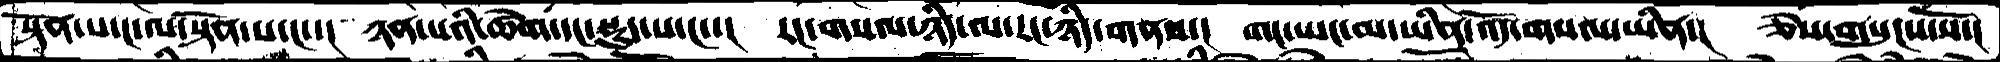སྟོན་པ་ང་ལ་སྟོན་པ་ང་་།  ཉན་པའི་ཚེག་དང་སྡུད་པ་ང་་།  རང་གསལ་ཉིད་ལ་རང་ཉིད་གནས་།  གང་ཡང་མ་ཡིན་འོད་གསལ་ཡིན་།  ཅེས་གསུངས་སོ་།
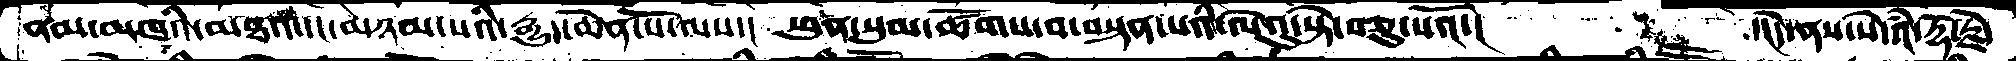ནམ་མཁའི་མཐའ་དང་མཉམ་པའི་རྒྱུད་ཆེན་པོ་ལས་།  ཕུན་སུམ་ཚོགས་བ་བསྟན་པའི་ལེའུ་སྟེ་བཅུ་པའོ་།      ་།དེ་ནས་སེདཾའ་རྡོ་རྗེ་
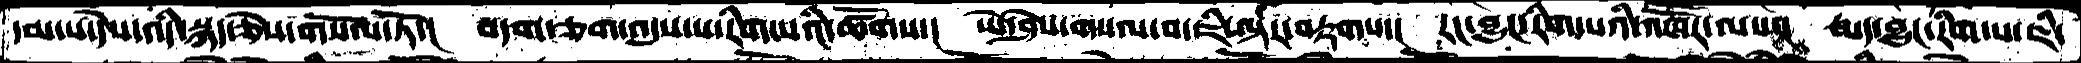དམ་པ་དེས་འདི་སྐད་ཅེས་གསོལ་ཏེ་།  བདག་ཅག་འདུས་པ་རིག་པའི་ཚོགས་།  ཡེ་ཤེས་གསལ་བ་ཇི་ལྟར་བརྟགས་།  རང་བྱུང་རིག་པའི་འཁཽར་ལས་།  རྨད་བྱུང་རིག་པ་ཇི་
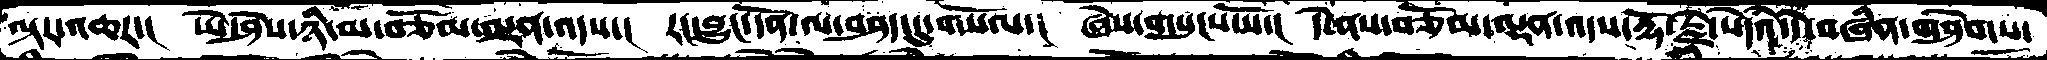ལྟར་འཆར་།  ཡེ་ཤེས་ཉི་མ་བཅོམ་ལྡན་འདས་།  རང་བྱུང་དོན་ལ་བཤད་དུ་གསོལ་།  ཞེས་གསུངས་སོ་།  དེ་ནས་བཅོམ་ལྡན་འདས་རྡོ་རྗེ་སེདཾའ་དེ་བཞིན་གཤེགས་
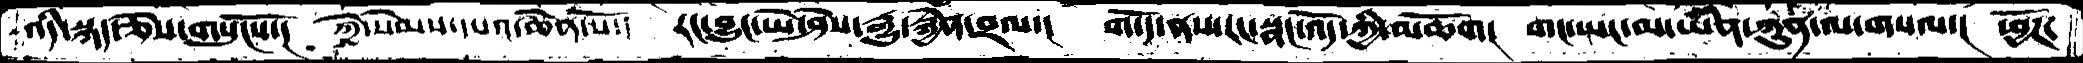འདི་སྐད་ཅེས་གསུངས་སོ་།  ཀྱེ་སེམས་དཔའ་ཆེན་པོ་།  རང་བྱུང་ཡེ་ཤེས་རྒྱུ་རྐྱེན་བྲལ་།  གདོད་ནས་རང་སྣང་འོད་ཀྱི་མཆོག།  གང་ཡང་མ་ཡིན་ཀུན་ལ་གསལ་།  ཕྱོཌ་
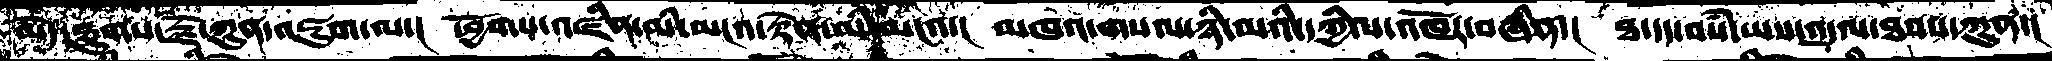མེད་ཐུགས་རྗེ་ཀུན་འཇུག་ལ་།  ཕྱོགས་འཛིན་མི་མངའ་རྟེན་མི་མངའ་།  མཁའ་གསལ་ཉི་མའི་དཀྱིལ་འཁོར་བཞིན་།  ཐ་དད་བསཾ་ཡས་འདུལ་ཐབས་ཀུན་།
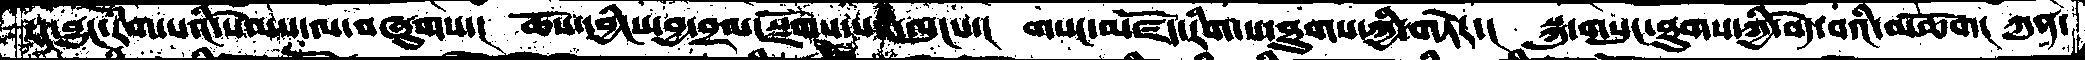རང་བྱུང་རིག་པའི་སེམས་ལ་བཞུགས་།  ཆོས་དབྱིངས་བྱ་བྲལ་སྫོགས་པའི་ལུངས་།  གསང་མཛོད་རིག་པ་ཐུགས་ཀྱི་གཏེར་།  སྐུ་གསུང་ཐུགས་ཀྱི་བདེ་བའི་མཆོག།  ཀུན་
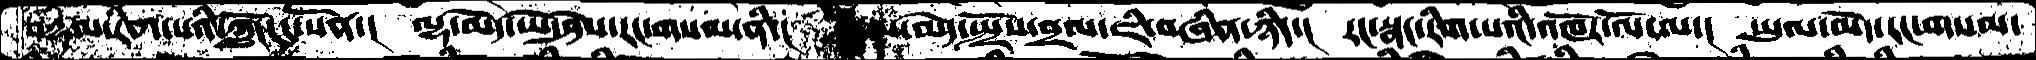བརྡལ་རིག་པའི་ཀློང་དུ་སོན་།  ལྷ་མེད་ཡེ་ཤེས་རང་གསལ་ནི་།  རྒྱུས་མེད་སྤྲོས་བྲལ་ཇི་བཞིན་ཉིད་།  རང་སྣང་རིག་པའི་འཁོར་ལོ་ལ་།  ཡུལ་མེད་རང་གསལ་
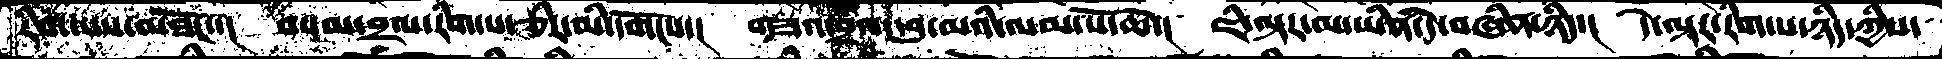རིག་པས་མཐོང་་།  བསམ་བྲལ་རིག་པ་ཅིར་མི་དགོངས་།  གཟའ་བྲལ་དབུ་མའི་ལམ་པོ་ཆེ་།  ཇི་ལྟར་མ་ཡིན་དེ་བཞིན་ཉིད་།  དེ་ལྟར་རིག་པ་ཉིད་ཀྱིས་
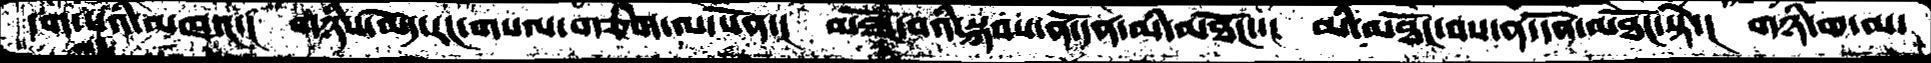དག་པའི་མཁའ་། གཉིས་མེད་རང་གསལ་གཅིག་ལ་སོན་།  མཐོ་བའི་སྐབས་ན་དོན་མི་མཐོང་།  མི་མཐོང་བས་ན་དོན་མཐོང་སྟེ་།  གཉི་ག་མ་
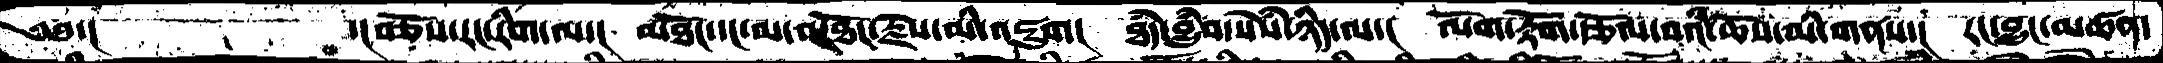༄༅་།       ་།བཅོས་རང་རིག་ལ་།  མཐོང་དང་མ་མཐོང་རྗེས་མི་འཇུག།  ཐཾད་བྱུཾབ་སེཾས་ཉིད་ལ་།  ལོག་རྟོག་རྩོལ་བའི་ཆོས་མི་གནས་།  རང་བྱུང་མཚན་
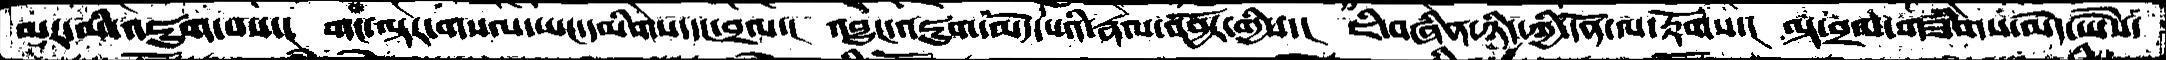མར་མི་འཇུག་པས་།  གང་ལྟར་གསལ་ཡང་དམིགས་དང་བྲལ་།  འབྱུང་འཇུག་མེད་པའི་རྣལ་འབྱོར་གྱིས་།  ཇི་བཞིན་ཉིད་ཀྱི་དོན་ལ་རྟོགས་།  ལྟ་བྲལ་གཟིགས་མེད་ཡཻས་
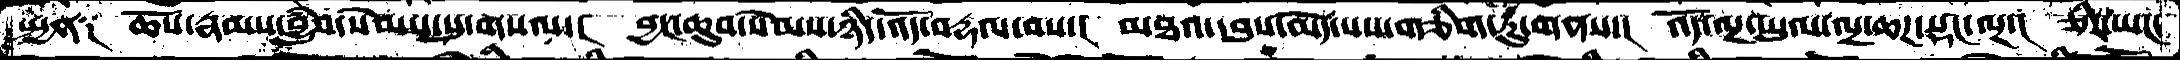སྤྱན༑  ཆོས་རྣམས་བྱུཾབ་སེམས་སུ་གསལ་།  བྱང་ཆུབ་སེམས་ཉིད་འོད་བརྡལ་བས་།  མཐའ་དབུས་མེད་པས་གཅིག་ཏུ་གནས་།  འདོ་ལྔ་ཡུལ་ལྔ་ཆཌ་སྡང་ལྔ་།  ཅིར་ཡང་
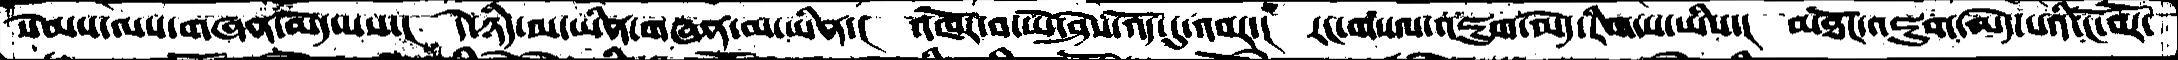སེམས་ལས་གཞན་མེད་པས་།  དེ་ཉིད་མ་ཡིན་གཞན་མ་ཡིན་།  འཁོར་བ་ཡེ་ཤེས་འོད་དུ་འབར་།  རང་གསལ་འཇུག་མེད་རིག་པ་ཡིས་། མཐོང་འཇུག་མེད་པའི་ངོ་བོར་
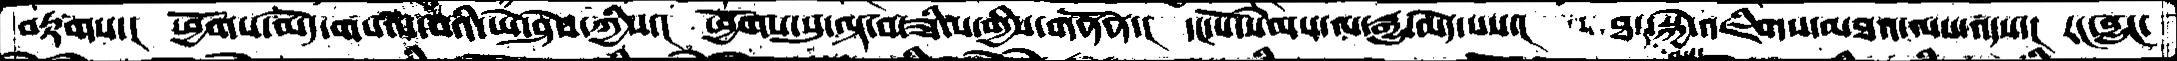བརྟགས་།  ཕྱོགས་མེད་གསལ་བའི་ཡེ་ཤེས་ཀྱིས་།  ཕྱོགས་སུ་ལྟ་བ་ཟིལ་གྱིས་གནོན་།  དང་པོ་སེམས་ལ་རྒྱུ་མེད་པས་།  ཐ་མར་སྐྱེ་འཇིགས་མཐའ་ལས་འདས་།  རང་བྱུང་
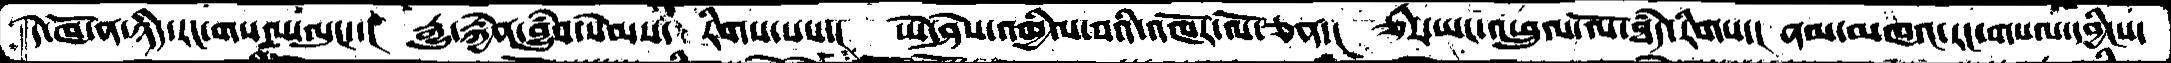དེ་ཁོ་ན་ཉིད་རང་གསལ་ལུང་་།  རྒྱུ་རྐྱེན་བྱུཾབ་སེམས་  རིགས་པས་།  ཡེ་ཤེས་འཁྱིལ་བའི་འཁོར་ལོ་ཅན་།  ཅིར་ཡང་འཕྲུལ་ལོ་ཐཾད་རིགས་།  ནམ་མཁའ་རང་གསལ་དབྱིངས་
